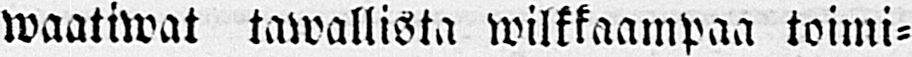waatiwat tawallista wilkkaampaa toimi-
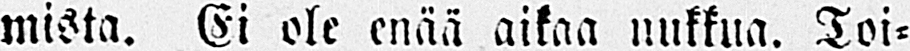mista. Ei ole enää aikaa nukkua. Toi-
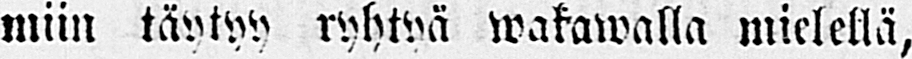miin täytyy ryhwä wakawalla mielellä,
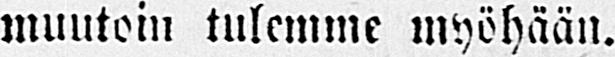muutoin tulemme myöhään.
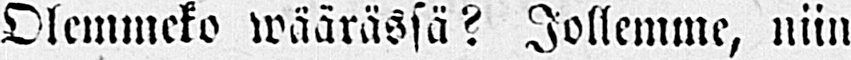Olemmeko wäärässä? Jollemme, niin
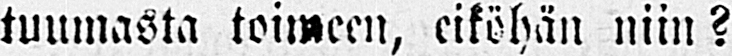tuumasta toimeen, eiköhän niin?
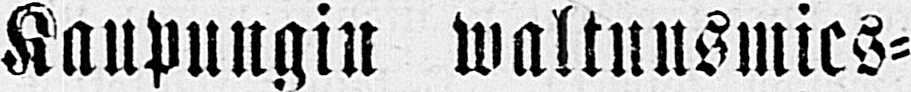Kaupungin waltuusmies-
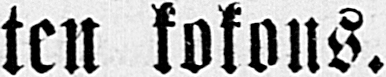ten kokous.
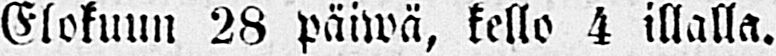Elokuun 28 päiwä, kello 4 illalla.
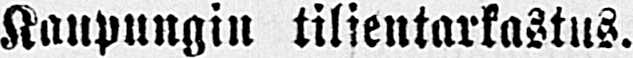Kaupungin tilientarkastus.
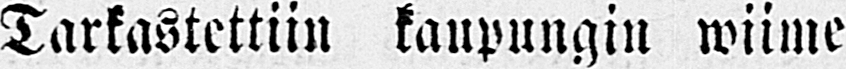Tarkastettiin kaupungin wiime
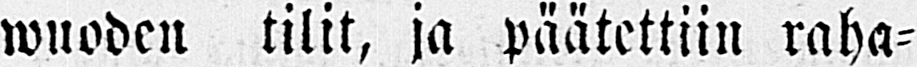wuoden tilit, ja päätettiin raha-
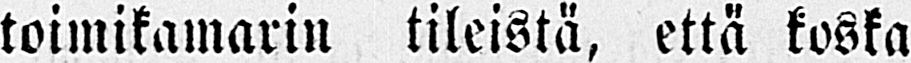toimikamarin tileistä, että koska
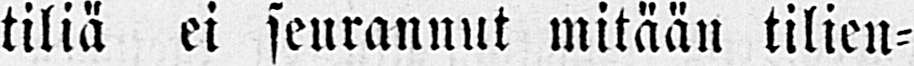tiliä ei seurannut mitään tilien-
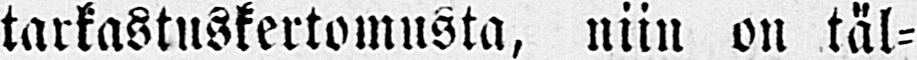tarkastuskertomusta, niin on täl-
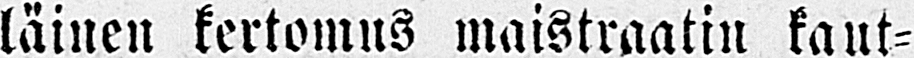läinen kertomus maistraatin kaut-
